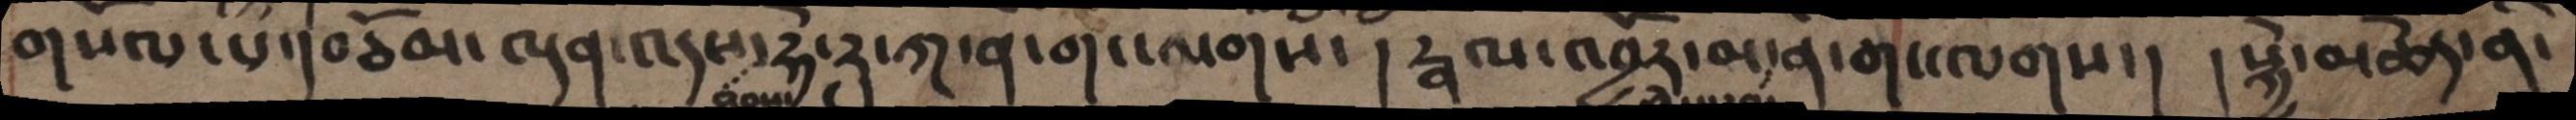གསོལ་པ་།བཅོམ་ལྡན་འདས་ཐབས་ཧེ་རུ་ཀ་ན་གང་ལགས་ ། རྣལ་འབྱོརད་མ་ནི་གང་ལགས་། །སྐྱེ་མཆེད་ནི་
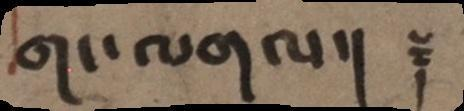གང་ལགལ་།  ༈
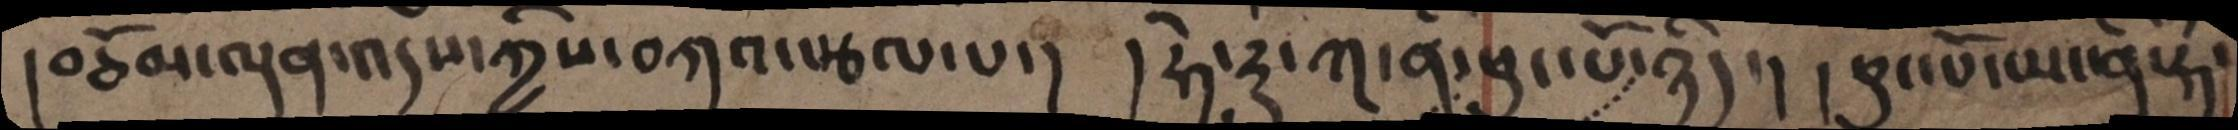།བཅོམ་ལྡན་འདས་ཀྱིས་བཀའ་སྩལ་པ་།  །ཧེ་རུ་ཀ་ནི་ཕུང་པོ་ཉིད་། །ཕུང་པོ་ཡང་ནི་ཧེ་
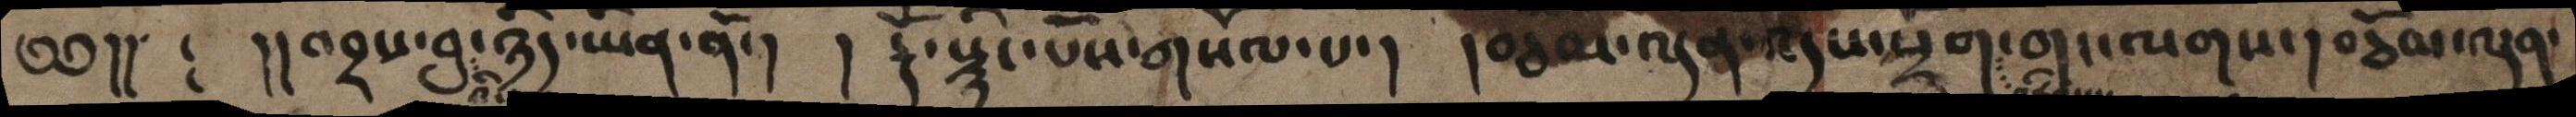༄༅།།  ༴  །།འབྲས་བུའི་ཉིད་ཡིན་ནོ་། །རྡོ་ེ་སྙིང་པོས་གསོལ་པ་། །བཅོམ་ལྡན་འདས་སྲོག་གང་ལགས་། བཅོམ་ལྡན་
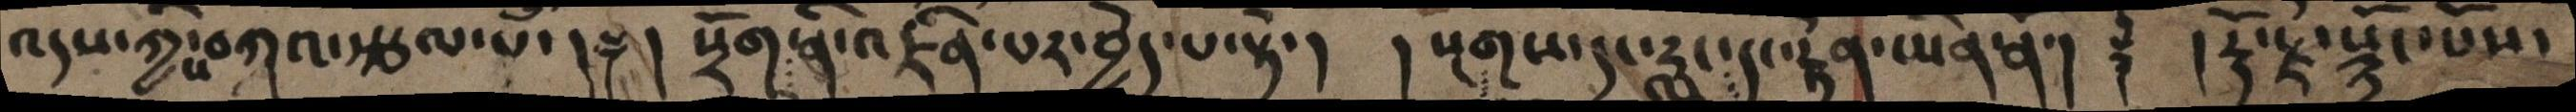འདས་ཀྱིས་བཀའ་སྩལ་པ་། ༈ ། སྲོག་ནི་འཛིན་པར་བྱེད་པ་སྟེ་། །སྔགས་དང་རླུང་དང་རྟེན་ཡིན་ནོ་། ༈ །རྡོ་རྗེ་སྙིང་པོས་
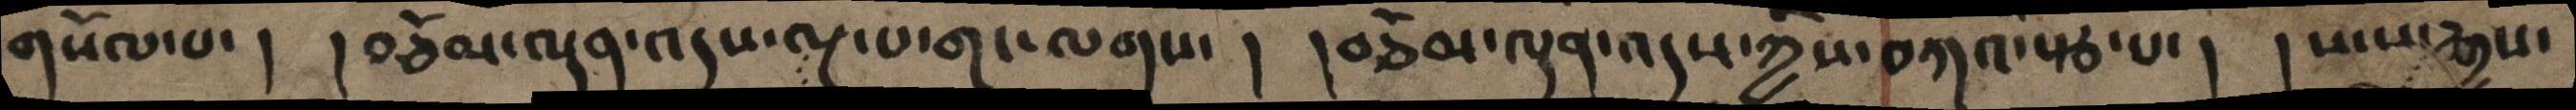གསོལ་པ་།  །བཅོམ་ལྡན་འདས་ལྔ་པ་གང་ལགས་། །བཅོམ་ལྡན་འདས་ཀྱིས་བཀའ་སྩ་པ་། །སངས་རྒྱས་
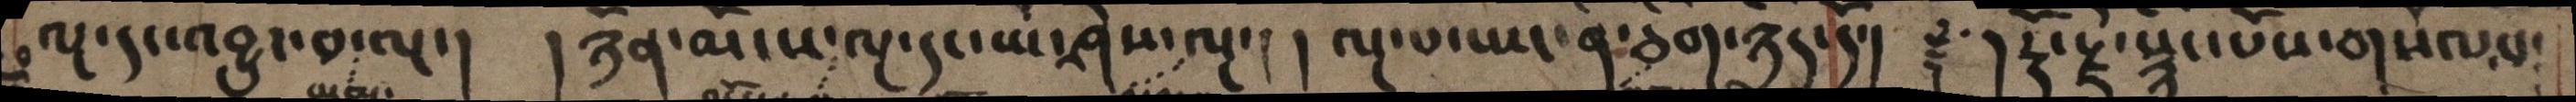ལྔ་དང་འབྱུང་བ་ལྔ་། །ཉོན་མོངས་ལྔ་དང་ཡེ་ཤེས་ལྔ་། །ལྔ་པ་ཡང་ནི་ཅིག་ཉིད་དོ་། ༈ །རྡོ་རྗེ་སྙིང་པོས་གསོལ་པ་
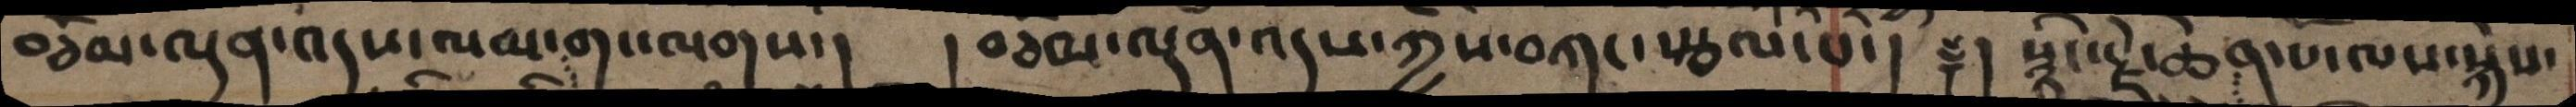བཅོམ་ལྡན་འདས་ལམ་གང་ལགས་།  །བཅོམ་ལྡན་འདས་ཀྱིས་བཀང་སྩལ་པ་། ༈ །སྙིང་རྗེ་ཆེན་པོ་ལས་སྐྱེས་
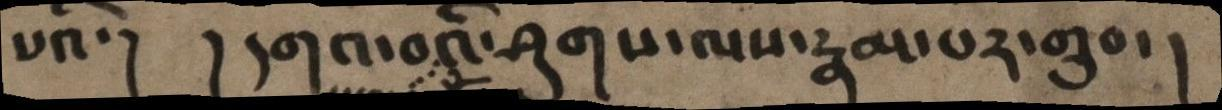པའི་།  ། དགའ་བའི་ཤུགས་ལས་རྣམ་པར་གྲུབ་།
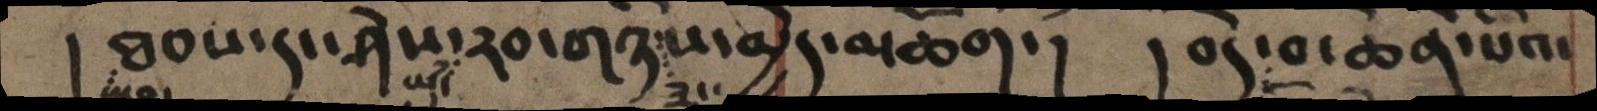། ཐབས་དང་ཤེས་རབ་གཉིས་མྱེད་མཆོག་། །བདེ་བ་ཆེན་པོའི་
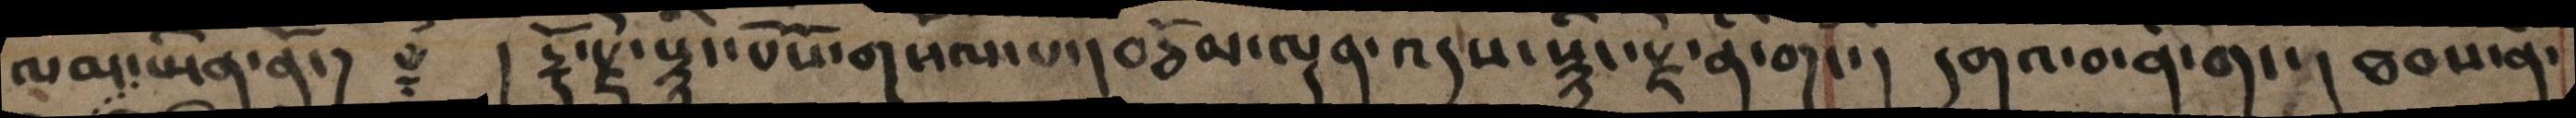ལམ་ཡིན་ནོ་། ༈ ། རྡོ་རྗེ་སྙིང་པོས་གསོལ་པ་། བཅོམ་ལྡན་འདས་སྙིང་རྗེ་ནི་གང་།  དགའ་བ་ནི་གང་། ཐབས་ནི་
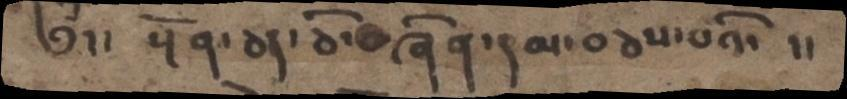༄ྃ། ། སྔོན་ཅད་ཅི་བཞིན་དམ་བཅས་པའི་  །།
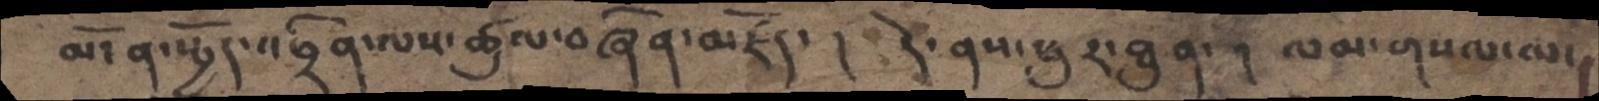མངོན་སྤྱོད་འཕྲིན་ལས་ཚུལ་བཞིན་མཛོད་།  དེ་ནས་ཕུར་ཐུན་ ། ལམ་གསལ་ལ་
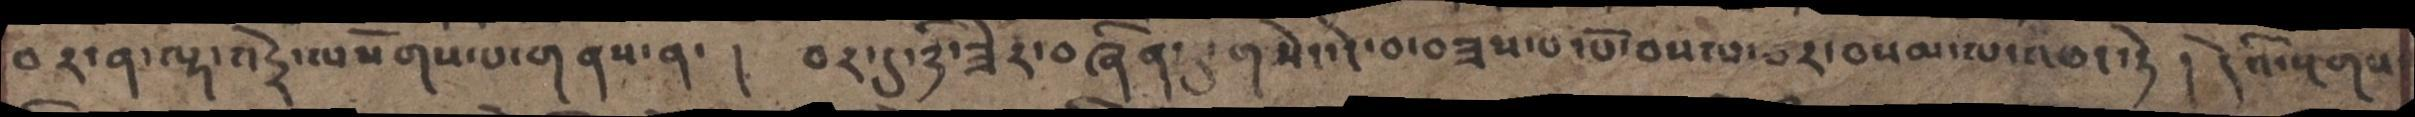བར་ན་ལྷ་འདྲེ་ལསོགས་པ་གནས་ན་ ། བར་དུ་ཉི་ཟེར་བཞིན་དུ་གསེང་ངེ་བ་བཟས་པ་པོ་བསལ་བར་བསམ་ལ་འཕང་ཏེ ། དེའི་སྔགས
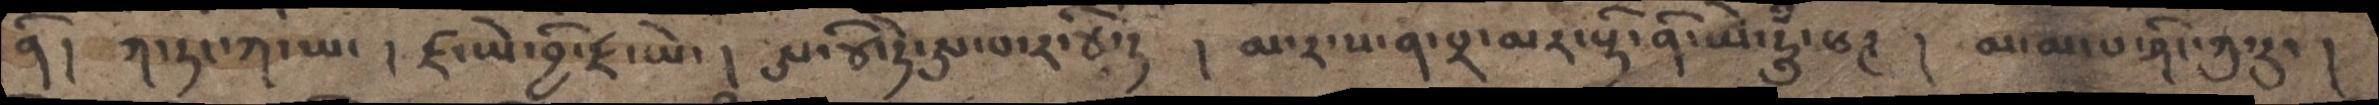ནི། ཀ་ཏང་ཀ་ཡ་ ། ཛ་ཡེ་བྱི་ཛ་ཡེ་ ། ཨ་ཙི་ཏེ་ཨ་པ་ར་ཙི་ཏེ ། མ་ར་ས་ན་པྲ་མར་རྡི་ནི་ཡེ་ཧཱུྃ་ཕཊ ། མ་མ་པ་ཤིང་ཀུ་རུ་ །
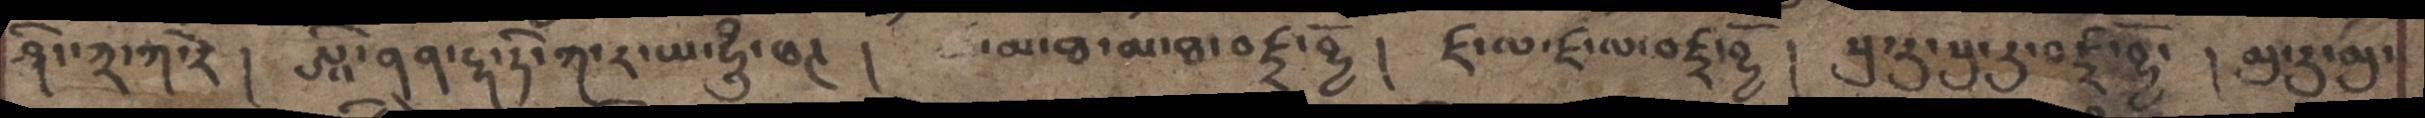ཤིང་ཀྲ་ཀ་རེ ། ཨཱི་ནན་དྷ་ཏི་ཀ་ར་ཡ་ཧཱུཾ་ཕཊ །  མ་ཐ་མ་ཐ་བཛྲ་བྷྱོ ། ཛ་ལ་ཛ་ལ་བཛྲ་བྷྱོ ། སུ་རུ་སུ་རུ་བཛྲ་བྷྱོ་ ། མུ་རུ་མུ་
